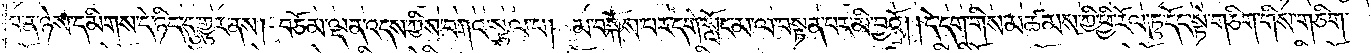པ་ན་ཉེས་དམིགས་དེ་ཉིད་དུ་གྱུར་ནས། བཅོམ་ལྡན་འདས་ཀྱིས་བཀའ་སྩལ་པ། མ་བསྐོས་པར་དགེ་སློང་མ་ལ་བསྟན་པར་མི་བྱའོ། །དེ་དག་གིས་མཚམས་ཀྱི་ཕྱི་རོལ་ཏུ་དོང་སྟེ་གཅིག་གིས་གཅིག་
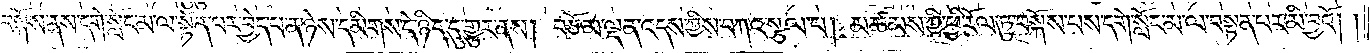བསྐོས་ནས་དགེ་སློང་མ་ལ་སྟོན་པར་བྱེད་པ་ན་ཉེས་དམིགས་དེ་ཉིད་དུ་གྱུར་ནས། བཅོམ་ལྡན་འདས་ཀྱིས་བཀའ་སྩལ་པ། མཚམས་ཀྱི་ཕྱི་རོལ་ཏུ་བསྐོས་པས་དགེ་སློང་མ་ལ་བསྟན་པར་མི་བྱའོ། །
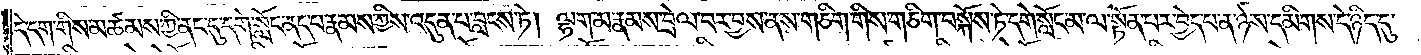དེ་དག་གིས་མཚམས་ཀྱི་ནང་དུ་དགེ་སློང་ནད་པ་རྣམས་ཀྱིས་འདུན་པ་བླངས་ཏེ། ལྷག་མ་རྣམས་བྲེལ་བར་བྱས་ནས་གཅིག་གིས་གཅིག་བསྐོས་ཏེ་དགེ་སློང་མ་ལ་སྟོན་པར་བྱེད་པ་ན་ཉེས་དམིགས་དེ་ཉིད་དུ་
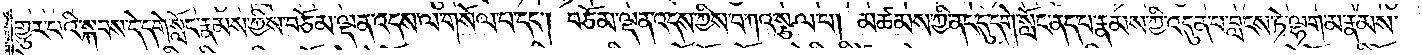གྱུར་པའི་སྐབས་དེ་དགེ་སློང་རྣམས་ཀྱིས་བཅོམ་ལྡན་འདས་ལ་གསོལ་པ་དང༌། བཅོམ་ལྡན་འདས་ཀྱིས་བཀའ་སྩལ་པ། མཚམས་ཀྱི་ནང་དུ་དགེ་སློང་ནད་པ་རྣམས་ཀྱི་འདུན་པ་བླངས་ཏེ་ལྷག་མ་རྣམས་
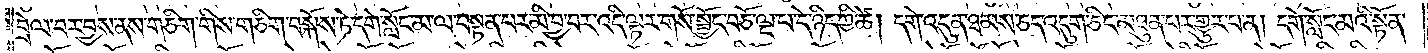བྲེལ་བར་བྱས་ནས་གཅིག་གིས་གཅིག་བསྐོས་ཏེ་དགེ་སློང་མ་ལ་བསྟན་པར་མི་བྱ་བར་འདི་ལྟར་གསོ་སྦྱོང་བཅོ་ལྔ་པ་དེ་ཉིད་ཀྱི་ཚེ། དགེ་འདུན་ཐམས་ཅད་འདུག་ཅིང་མཐུན་པར་གྱུར་པ་ན། དགེ་སློང་མའི་སྟོན་
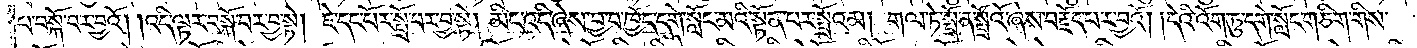པ་བསྐོ་བར་བྱའོ། །འདི་ལྟར་བསྐོ་བར་བྱ་སྟེ། ཇེ་དང་པོར་སྤྲོ་བར་བྱ་སྟེ། མིང་འདི་ཞེས་བྱ་བ་ཁྱོད་དགེ་སློང་མའི་སྟོན་པར་སྤྲོའམ། གལ་ཏེ་སྤྲོ་ན་སྤྲོའོ་ཞེས་བརྗོད་པར་བྱའོ། །དེའི་འོག་ཏུ་དགེ་སློང་གཅིག་གིས་
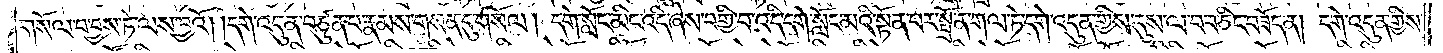གསོལ་བ་བྱས་ཏེ་ལས་བྱའོ། །དགེ་འདུན་བཙུན་པ་རྣམས་གསན་དུ་གསོལ། དགེ་སློང་མིང་འདི་ཞེས་བགྱི་བ་འདི་དགེ་སློང་མའི་སྟོན་པར་སྤྲོ་ན་གལ་ཏེ་དགེ་འདུན་གྱིས་དུས་ལ་བབ་ཅིང་བཟོད་ན། དགེ་འདུན་གྱིས་
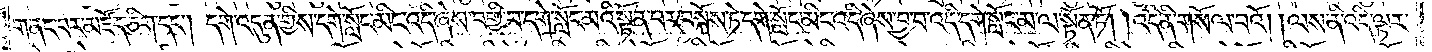གནང་བར་མཛོད་ཅིག་དང༌། དགེ་འདུན་གྱིས་དགེ་སློང་མིང་འདི་ཞེས་བགྱི་བ་དགེ་སློང་མའི་སྟོན་པར་བསྐོས་ཏེ་དགེ་སློང་མིང་འདི་ཞེས་བྱ་བ་འདི་དགེ་སློང་མ་ལ་སྟོན་ཏོ། །འདི་ནི་གསོལ་བའོ། །ལས་ནི་འདི་ལྟར་
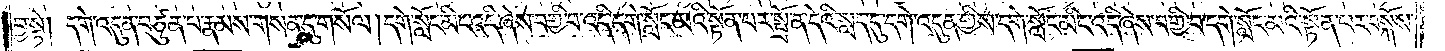བྱ་སྟེ། དགེ་འདུན་བཙུན་པ་རྣམས་གསན་དུ་གསོལ། དགེ་སློང་མིང་འདི་ཞེས་བགྱི་བ་འདི་དགེ་སློང་མའི་སྟོན་པར་སྤྲོ་ན་དེའི་སླད་དུ་དགེ་འདུན་གྱིས་དགེ་སློང་མིང་འདི་ཞེས་བགྱི་བ་དགེ་སློང་མའི་སྟོན་པར་བསྐོས་
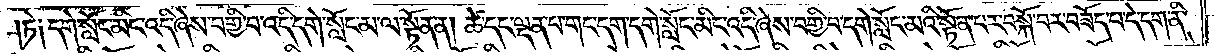ཏེ༑དགེ་སློང་མིང་འདི་ཞེས་བགྱི་བ་འདི་དགེ་སློང་མ་ལ་སྟོན་ན། ཚེ་དང་ལྡན་པ་གང་དག་དགེ་སློང་མིང་འདི་ཞེས་བགྱི་བ་དགེ་སློང་མའི་སྟོན་པར་བསྐོ་བར་བཟོད་པ་དེ་དག་ནི་
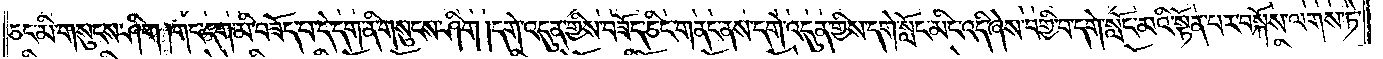ཅང་མི་གསུངས་ཤིག །གང་དག་མི་བཟོད་པ་དེ་དག་ནི་གསུངས་ཤིག །དགེ་འདུན་གྱིས་བཟོད་ཅིང་གནང་ནས་དགེ་འདུན་གྱིས་དགེ་སློང་མིང་འདི་ཞེས་བགྱི་བ་དགེ་སློང་མའི་སྟོན་པར་བསྐོས་ལགས་ཏེ་
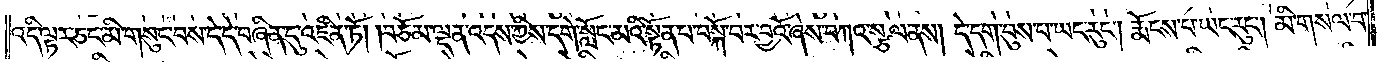འདི་ལྟར་ཅང་མི་གསུང་བས་དེ་དེ་བཞིན་དུ་འཛིན་ཏོ། །བཅོམ་ལྡན་འདས་ཀྱིས་དགེ་སློང་མའི་སྟོན་པ་བསྐོ་བར་བྱའོ་ཞེས་བཀའ་སྩལ་ནས། དེ་དག་བུས་པ་ཡང་རུང༌། རྨོངས་པ་ཡང་རུང༌། མི་གསལ་བ་
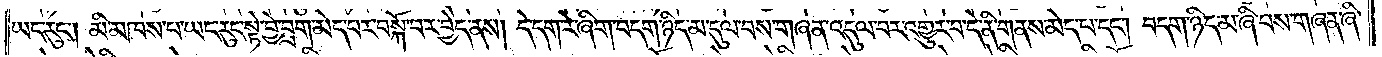ཡང་རུང༌། མི་མཁས་པ་ཡང་རུང་སྟེ་བྱེ་བྲག་མེད་པར་བསྐོ་བར་བྱེད་ནས། དེ་དག་རེ་ཞིག་བདག་ཉིད་མ་དུལ་བས་གཞན་འདུལ་བར་འགྱུར་བ་དེ་ནི་གནས་མེད་པ་དང༌། བདག་ཉིད་མ་ཞི་བས་གཞན་ཞི་
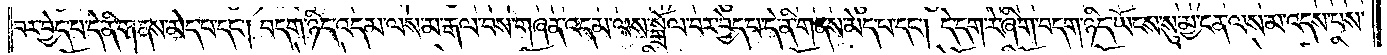བར་བྱེད་པ་དེ་ནི་གནས་མེད་པ་དང༌། བདག་ཉིད་འདམ་ལས་མ་རྒལ་བས་གཞན་འདམ་ལས་སྒྲོལ་བར་བྱེད་པ་དེ་ནི་གནས་མེད་པ་དང༌། དེ་དག་རེ་ཞིག་བདག་ཉིད་ཡོངས་སུ་མྱ་ངན་ལས་མ་འདས་པས་
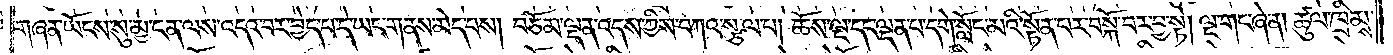གཞན་ཡོངས་སུ་མྱ་ངན་ལས་འདའ་བར་བྱེད་པ་དེ་ཡང་གནས་མེད་པས། བཅོམ་ལྡན་འདས་ཀྱིས་བཀའ་སྩལ་པ། ཆོས་ལྔ་དང་ལྡན་པ་དགེ་སློང་མའི་སྟོན་པར་བསྐོ་བར་བྱ་སྟེ། ལྔ་གང་ཞེ་ན། ཚུལ་ཁྲིམས་
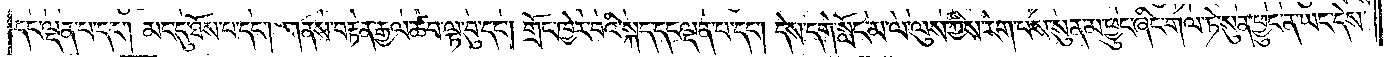དང་ལྡན་པ་དང༌། མང་དུ་ཐོས་པ་དང༌། གནས་བརྟན་རྒྱལ་ཚབ་ལྟ་བུ་དང༌། གྲོང་ཁྱེར་བའི་སྐད་དང་ལྡན་པ་དང༌། དེས་དགེ་སློང་མ་ལ་ལུས་ཀྱིས་རེག་པས་སུན་མ་ཕྱུང་ཞིང་གལ་ཏེ་སུན་ཕྱུང་ན་ཡང་དེས་
